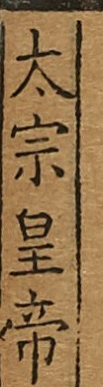太宗皇帝
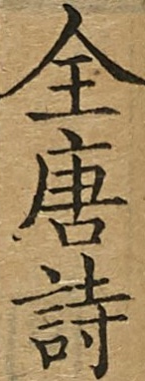全唐詩
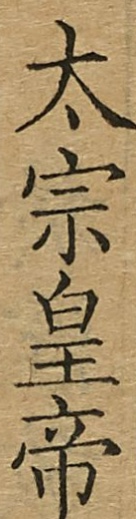太宗皇帝
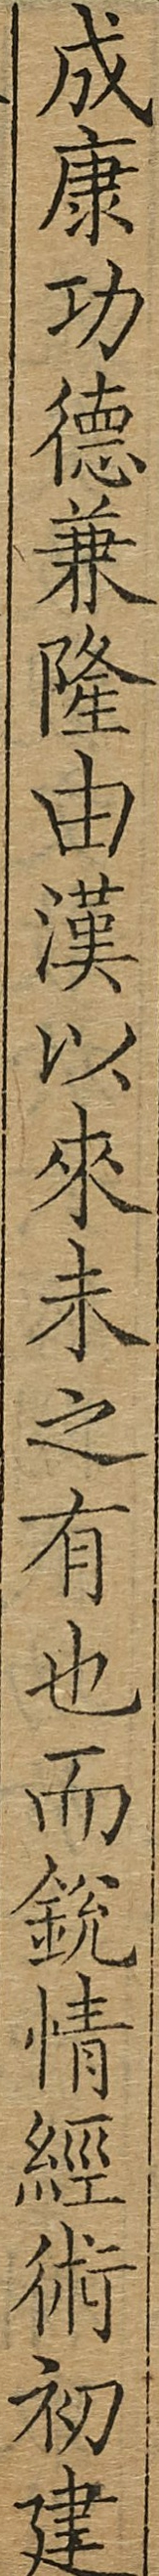成康功德兼隆由漢以來未之有也而銳情經術初建
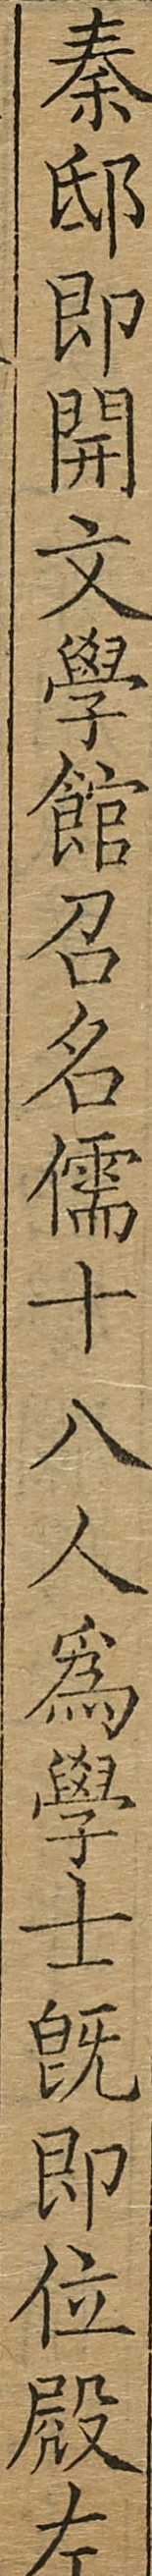秦邸卽開文學館召名儒十八人為學士旣卽位殿左
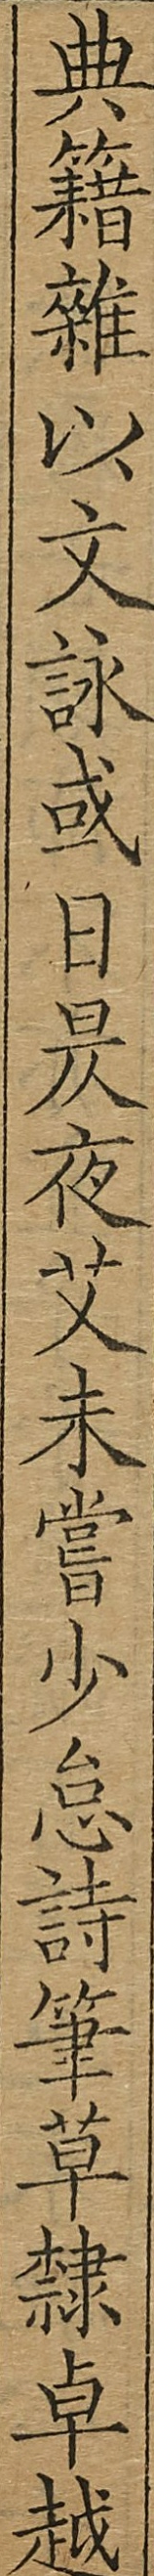典籍雜以文詠或日昃夜艾未嘗少怠詩筆草隸卓越
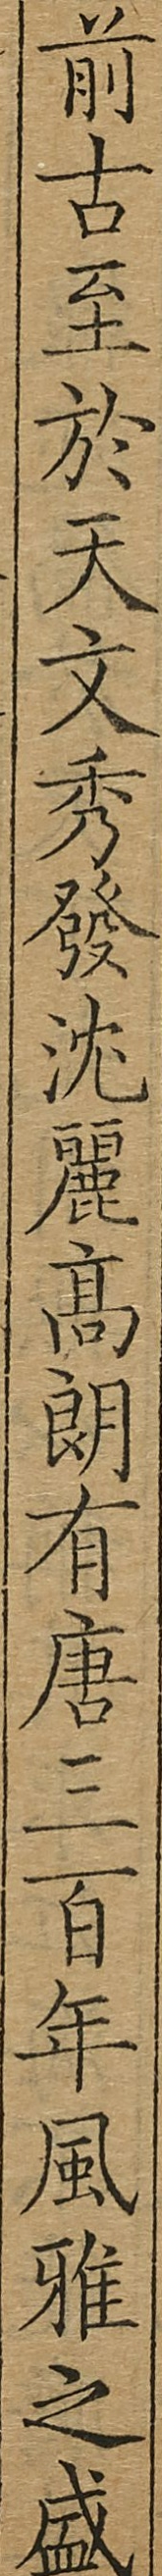前古至於天文秀發沈麗高朗有唐三百年風雅之盛
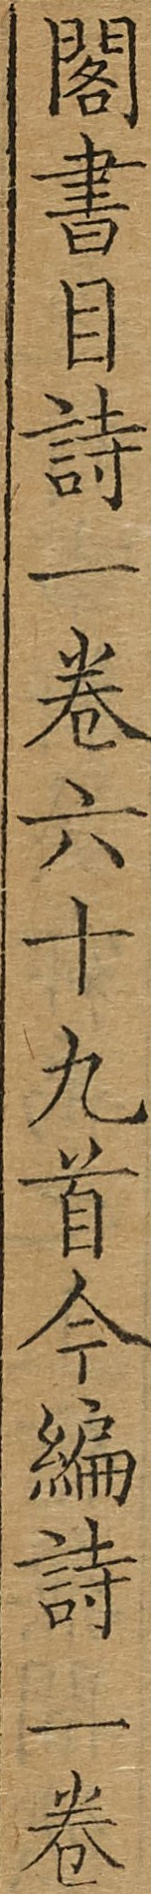閣書目詩一卷六十九首今編詩一卷
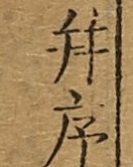并序
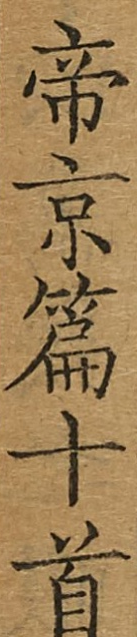帝京篇十首
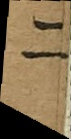二
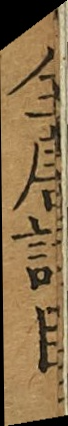全唐詩目
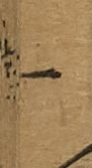一
